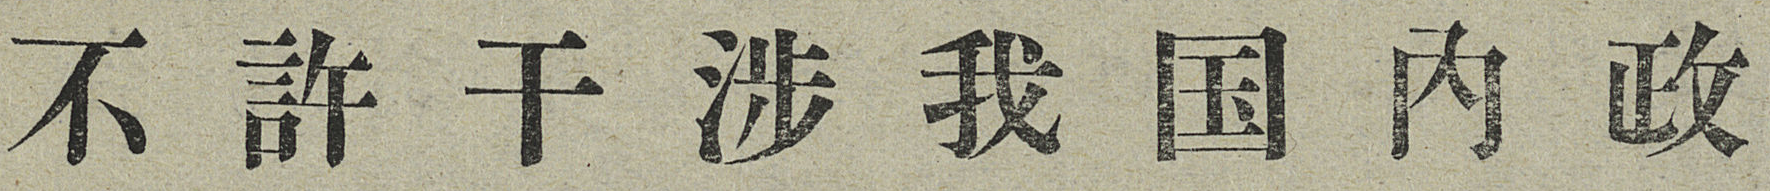不 許 干 涉 我 国 內 政
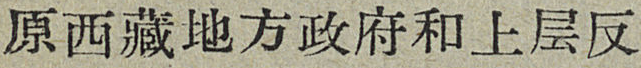原西藏地方政府和上层反
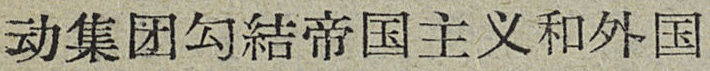动集团勾結帝国主义和外国
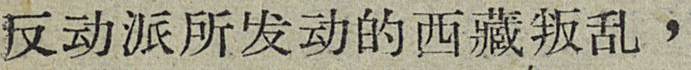反动派所发动的西藏叛乱，
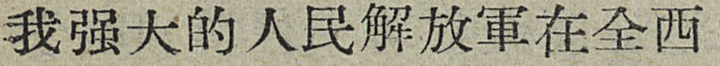我强大的人民解放軍在全西
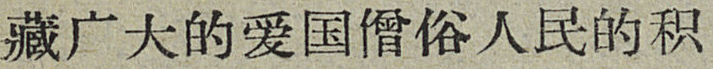藏广大的爱国僧俗人民的积
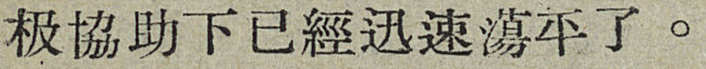极協助下已經迅速蕩平了。
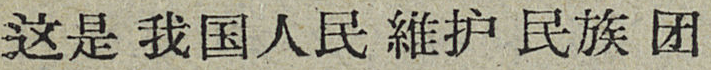这是我国人民維护民族团
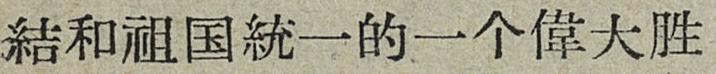結和祖国統一的一个偉大胜
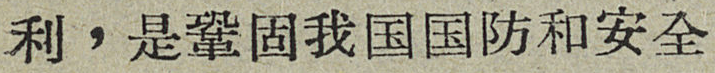利，是鞏固我国国防和安全
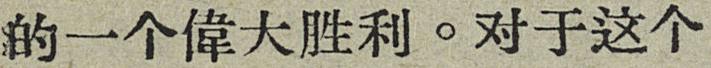的一个偉大胜利。对于这个
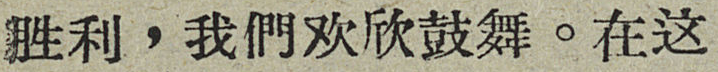胜利，我們欢欣鼓舞。在这
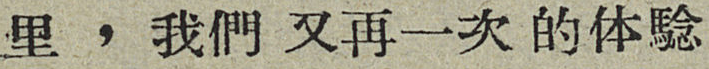里，我們 又再一次 的体騐
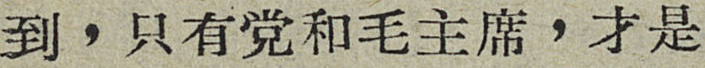到，只有党和毛主席，才是
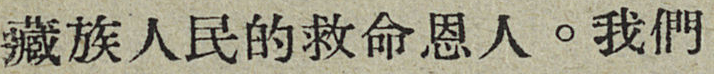藏族人民的救命恩人。我們
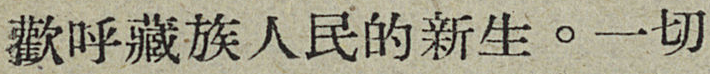歡呼藏族人民的新生。一切
